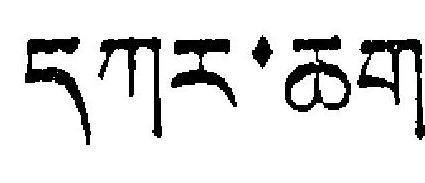དཀར་ཆག
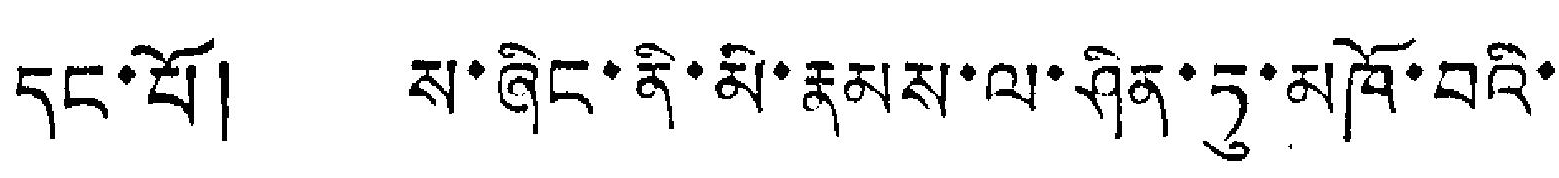དང་པོ། ས་ཞིང་ནི་མི་རྣམས་ལ་ཤིན་ཏུ་མཁོ་བའི་
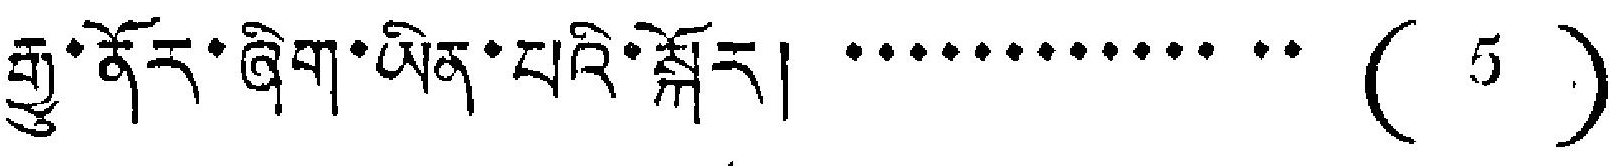རྒྱུ་ནོར་ཞིག་ཡིན་པའི་སྐོར། …………… (5)
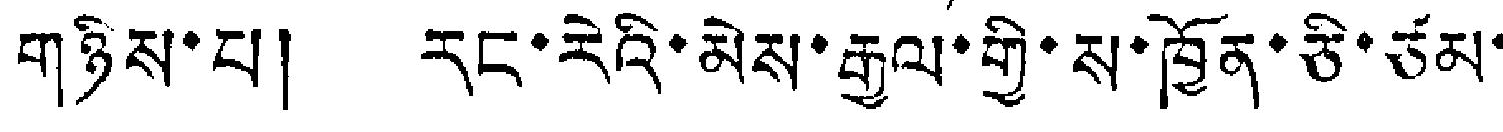གཉིས་པ། རང་རེའི་མེས་རྒྱལ་གྱི་ས་ཁྱོན་ཅི་ཅམ་
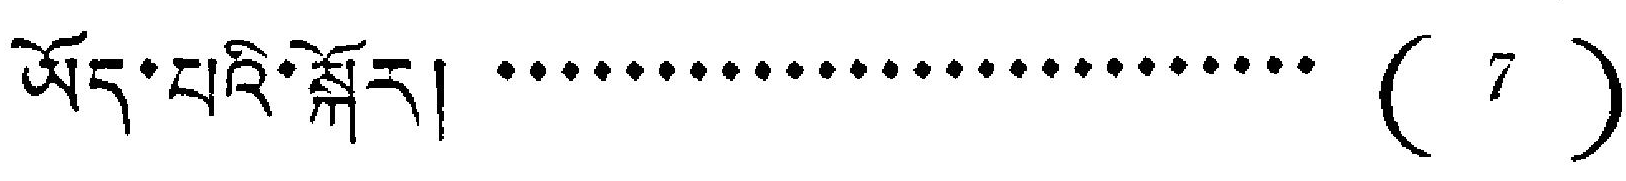ཡོད་པའི་སྐོར། ……………………… (7)
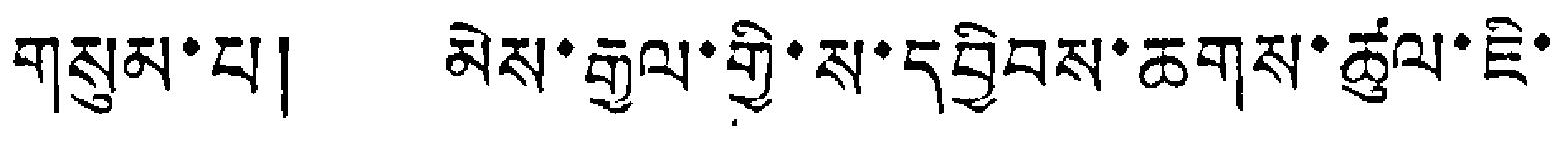གསུམ་པ། མེས་རྒྱལ་གྱི་ས་དབྱིབས་ཆགས་ཚུལ་ཇི་
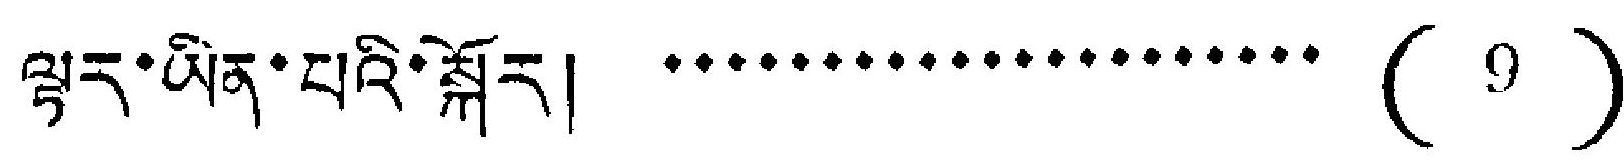ལྟར་ཡིན་པའི་སྐོར། ………………… (9)
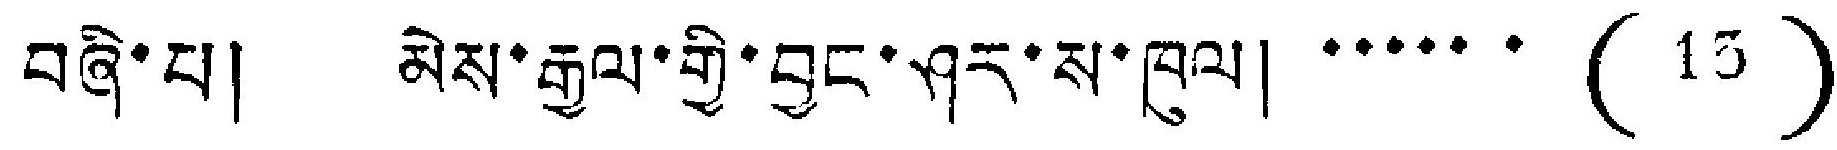བཞི་པ། མེས་རྒྱལ་གྱི་བྱང་ཤར་ས་ཁུལ། …… (13)
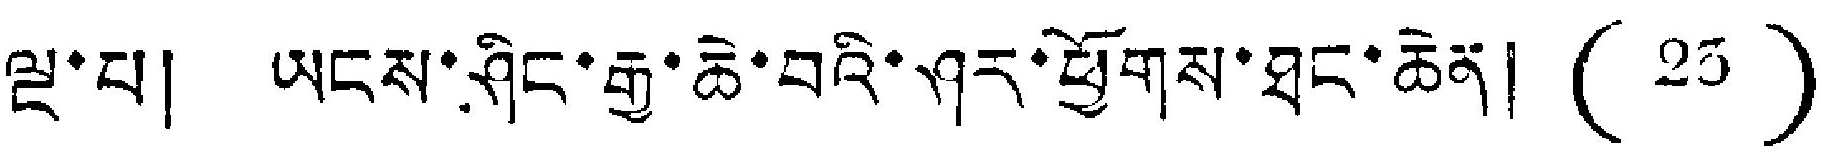ལྔ་པ། ཡངས་ཤིང་རྒྱ་ཆེ་བའི་ཤར་ཕྱོགས་ཐང་ཆེན། (23)
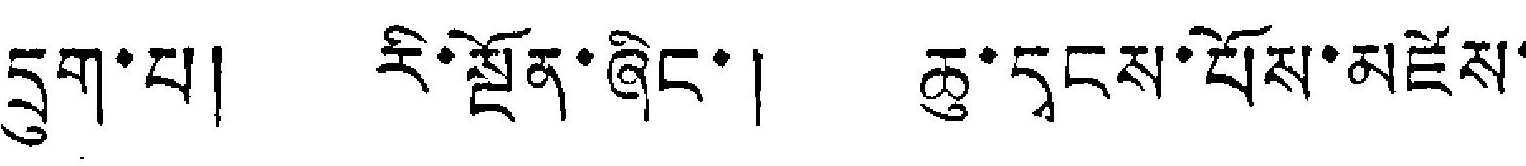དྲུག་པ། རི་སྔོན་ཞིང་། ཆུ་དྭངས་པོས་མཛེས་
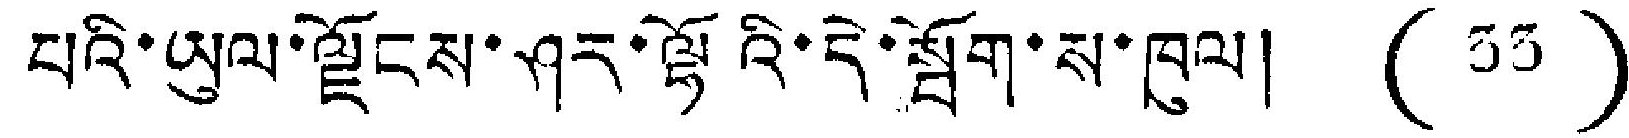པའི་ཡུལ་ལྗོངས་ཤར་ལྷོའི་དེ་སྦོག་ས་ཁུལ། (33)
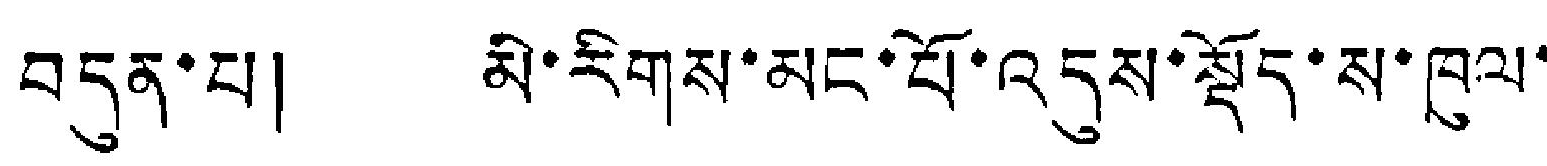བདུན་པ། མི་རིགས་མང་པོ་འདུས་སྡོད་ས་ཁུལ་
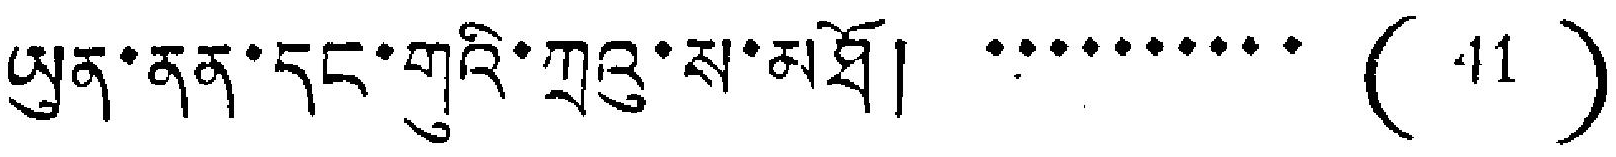ཡུན་ནན་དང་གུའི་ཀྲའུ་ས་མཐོ། ……… (41)
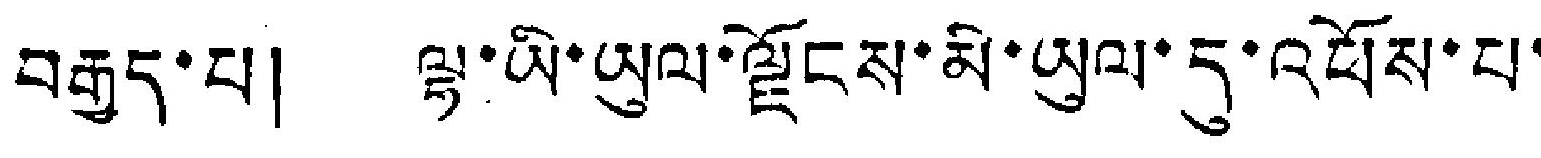བརྒྱད་པ། ལྷ་ཡི་ཡུལ་ལྗོངས་མི་ཡུལ་དུ་འཕོས་པ་
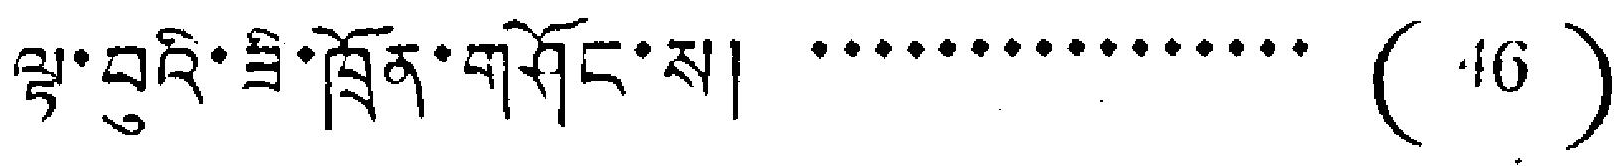ལྟ་བའི་ཟི་ཁྲོན་གཤོང་ས། ……………… (46)
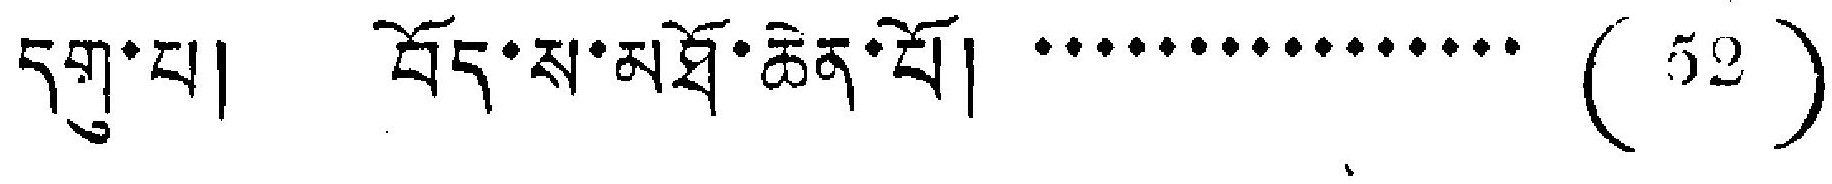དགུ་པ། བོད་ས་མཐོ་ཆེན་པོ། …………… (52)
